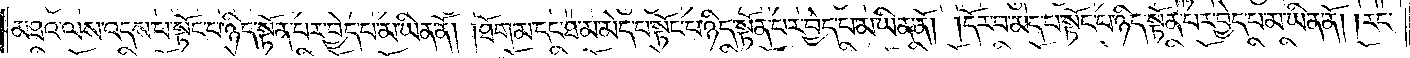མཐའ་ལས་འདས་པ་སྟོང་པ་ཉིད་སྟོན་པར་བྱེད་པ་མ་ཡིན་ནོ། །ཐོག་མ་དང་ཐ་མ་མེད་པ་སྟོང་པ་ཉིད་སྟོན་པར་བྱེད་པ་མ་ཡིན་ནོ། །དོར་བ་མེད་པ་སྟོང་པ་ཉིད་སྟོན་པར་བྱེད་པ་མ་ཡིན་ནོ། །རང་
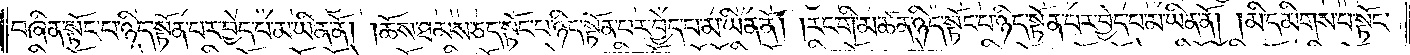བཞིན་སྟོང་པ་ཉིད་སྟོན་པར་བྱེད་པ་མ་ཡིན་ནོ། །ཆོས་ཐམས་ཅད་སྟོང་པ་ཉིད་སྟོན་པར་བྱེད་པ་མ་ཡིན་ནོ། །རང་གི་མཚན་ཉིད་སྟོང་པར་ཉིད་སྟོན་པར་བྱེད་པ་མ་ཡིན་ནོ། །མི་དམིགས་པ་སྟོང་
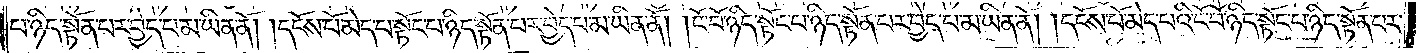པ་ཉིད་སྟོན་པར་བྱེད་པ་མ་ཡིན་ནོ། །དངོས་པོ་མེད་པ་སྟོང་པ་ཉིད་སྟོན་པར་བྱེད་པ་མ་ཡིན་ནོ། །ངོ་བོ་ཉིད་སྟོང་པ་ཉིད་སྟོན་པར་བྱེད་པ་མ་ཡིན་ནོ། །དངོས་པོ་མེད་པའི་ངོ་བོ་ཉིད་སྟོང་པ་ཉིད་སྟོན་པར་
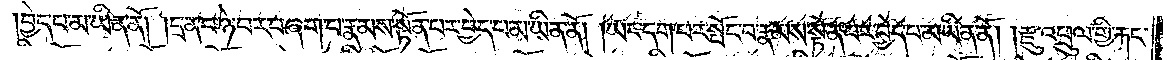བྱེད་པ་མ་ཡིན་ནོ། །དྲན་པ་ཉེ་བར་བཞག་པ་རྣམས་སྟོན་པར་བྱེད་པ་མ་ཡིན་ནོ། །ཡང་དག་པར་སྤོང་བ་རྣམས་སྟོན་པར་བྱེད་པ་མ་ཡིན་ནོ། །རྫུ་འཕྲུལ་གྱི་རྐང་
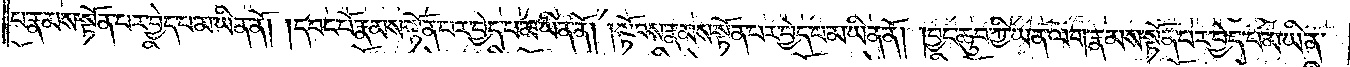པ་རྣམས་སྟོན་པར་བྱེད་པ་མ་ཡིན་ནོ། །དབང་བོ་རྣམས་སྟོན་པར་བྱེད་པ་མ་ཡིན་ནོ། །སྟོབས་རྣམས་སྟོན་པར་བྱེད་པ་མ་ཡིན་ནོ། །བྱང་ཆུབ་ཀྱི་ཡན་ལག་རྣམས་སྟོན་པར་བྱེད་པ་མ་ཡིན་
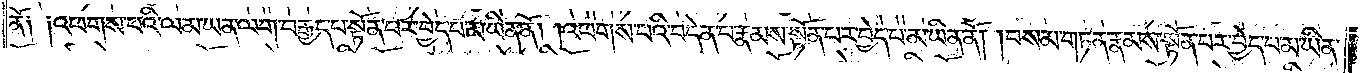ནོ༑ ༑འཕགས་པའི་ལམ་ཡན་ལག་བརྒྱད་པ་སྟོན་པར་བྱེད་པ་མ་ཡིན་ནོ། །འཕགས་པའི་བདེན་པ་རྣམས་སྟོན་པར་བྱེད་པ་མ་ཡིན་ནོ། །བསམ་གཏན་རྣམས་སྟོན་པར་བྱེད་པ་མ་ཡིན་
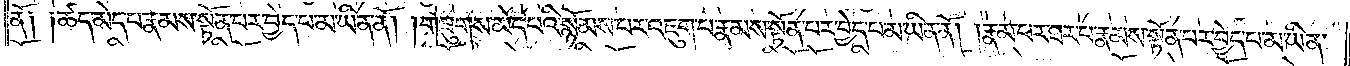ནོ༑ ༑ཚད་མེད་པ་རྣམས་སྟོན་པར་བྱེད་པ་མ་ཡིན་ནོ། །གཟུགས་མེད་པའི་སྙོམས་པར་འཇུག་པ་རྣམས་སྟོན་པར་བྱེད་པ་མ་ཡིན་ནོ། །རྣམ་པར་ཐར་པ་རྣམས་སྟོན་པར་བྱེད་པ་མ་ཡིན་
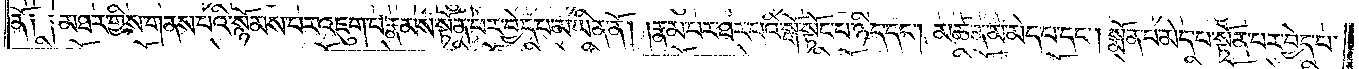ནོ༑ ༑མཐར་གྱིས་གནས་པའི་སྙོམས་པར་འཇུག་པ་རྣམས་སྟོན་པར་བྱེད་པ་མ་ཡིན་ནོ། །རྣམ་པར་ཐར་པའི་སྒོ་སྟོང་པ་ཉིད་དང༌། མཚན་མ་མེད་པ་དང༌། སྨོན་པ་མེད་པ་སྟོན་པར་བྱེད་པ་
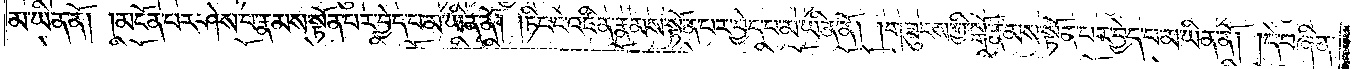མ་ཡིན་ནོ། །མངོན་པར་ཤེས་པ་རྣམས་སྟོན་པར་བྱེད་པ་མ་ཡིན་ནོ། །ཏིང་ངེ་འཛིན་རྣམས་སྟོན་པར་བྱེད་པ་མ་ཡིན་ནོ། །གཟུངས་ཀྱི་སྒོ་རྣམས་སྟོན་པར་བྱེད་པ་མ་ཡིན་ནོ། །དེ་བཞིན་
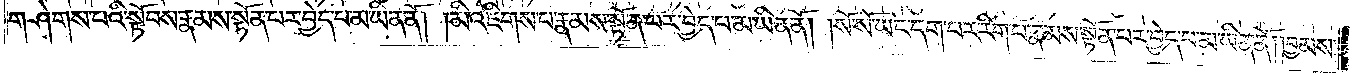གཤེགས་པའི་སྟོབས་རྣམས་སྟོན་པར་བྱེད་པ་མ་ཡིན་ནོ། །མི་འཇིགས་པ་རྣམས་སྟོན་པར་བྱེད་པ་མ་ཡིན་ནོ། །སོ་སོ་ཡང་དག་པར་རིག་པ་རྣམས་སྟོན་པར་བྱེད་པ་མ་ཡིན་ནོ། །བྱམས་
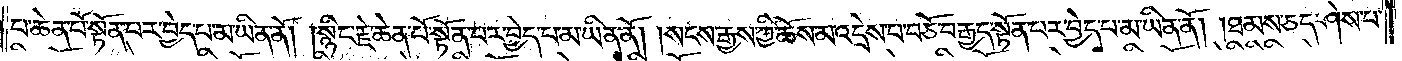པ་ཆེན་པོ་སྟོན་པར་བྱེད་པ་མ་ཡིན་ནོ། །སྙིང་རྗེ་ཆེན་པོ་སྟོན་པར་བྱེད་པ་མ་ཡིན་ནོ། །སངས་རྒྱས་ཀྱི་ཆོས་མ་འདྲེས་པ་བཅོ་བརྒྱད་སྟོན་པར་བྱེད་པ་མ་ཡིན་ནོ། །ཐམས་ཅད་ཤེས་པ་
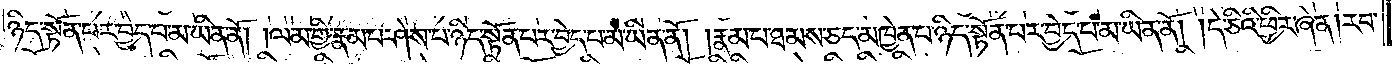ཉིད་སྟོན་པར་བྱེད་པ་མ་ཡིན་ནོ། །ལམ་གྱི་རྣམ་པར་ཤེས་པ་ཉིད་སྟོན་པར་བྱེད་པ་མ་ཡིན་ནོ། །རྣམ་པ་ཐམས་ཅད་མཁྱེན་པ་ཉིད་སྟོན་པར་བྱེད་པ་མ་ཡིན་ནོ། །དེ་ཅིའི་ཕྱིར་ཞེ་ན། རབ་
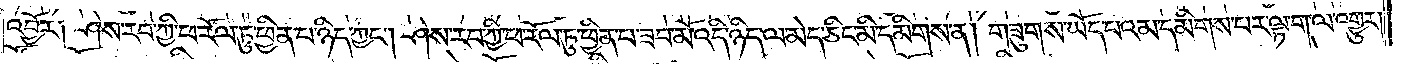འབྱོར༑ ཤེས་རབ་ཀྱི་ཕ་རོལ་ཏུ་ཕྱིན་པ་ཉིད་ཀྱང༌། ཤེས་རབ་ཀྱི་ཕ་རོལ་ཏུ་ཕྱིན་པ་ཟབ་མོ་འདི་ཉིད་ལ་མེད་ཅིང་མི་དམིགས་ན། གཟུགས་ཡོད་པ་འམ་དམིགས་པར་ལྟ་ག་ལ་འགྱུར།
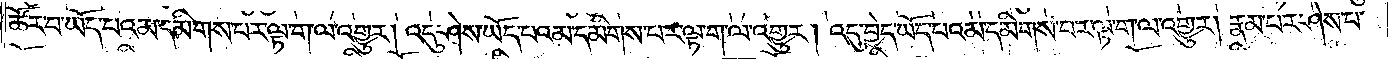ཚོར་བ་ཡོད་པའམ་དམིགས་པར་ལྟ་ག་ལ་འགྱུར། འདུ་ཤེས་ཡོད་པའམ་དམིགས་པར་ལྟ་ག་ལ་འགྱུར། འདུ་བྱེད་ཡོད་པའམ་དམིགས་པར་ལྟ་ག་ལ་འགྱུར། རྣམ་པར་ཤེས་པ་
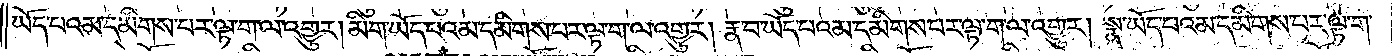ཡོད་པའམ་དམིགས་པར་ལྟ་ག་ལ་འགྱུར། མིག་ཡོད་པའམ་དམིགས་པར་ལྟ་ག་ལ་འགྱུར། རྣ་བ་ཡོད་པའམ་དམིགས་པར་ལྟ་ག་ལ་འགྱུར། སྣ་ཡོད་པའམ་དམིགས་པར་ལྟ་ག་
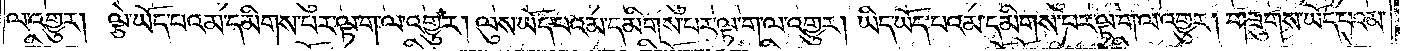ལ་འགྱུར། ལྕེ་ཡོད་པའམ་དམིགས་པར་ལྟ་ག་ལ་འགྱུར། ལུས་ཡོད་པའམ་དམིགས་པར་ལྟ་ག་ལ་འགྱུར། ཡིད་ཡོད་པའམ་དམིགས་པར་ལྟ་ག་ལ་འགྱུར། གཟུགས་ཡོད་པའམ་
